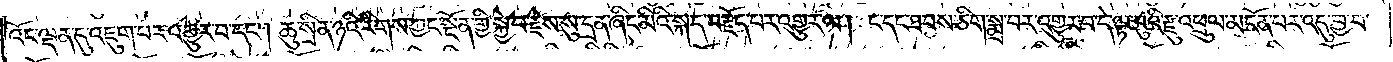འོང་ལྡན་དུ་འཇུག་པར་འགྱུར་བ་དང༌། ཆུ་སྲིན་ཉའི་རིགས་ཀྱང་སྔོན་གྱི་སྐྱེ་བ་རྗེས་སུ་དྲན་ཞིང་མིའི་སྐད་བརྗོད་པར་འགྱུར་ལ། ང་དང་ཐབས་ཅིག་སྨྲ་བར་འགྱུར་བ་དེ་ལྟ་བུའི་རྫུ་འཕྲུལ་མངོན་པར་འདུ་བྱ་བ་
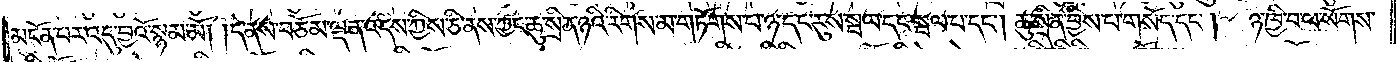མངོན་པར་འདུ་བྱའོ་སྙམ་མོ། །དེ་ནས་བཅོམ་ལྡན་འདས་ཀྱིས་ཅི་ནས་ཀྱང་ཆུ་སྲིན་ཉའི་རིགས་མ་གཏོགས་པ་ཉ་དང་རུས་སྦལ་དང་སྦལ་པ་དང༌། ཆུ་སྲིན་བྱིས་པ་གསོད་དང༌། ཉ་ཁྱི་བ་ལ་སོགས་
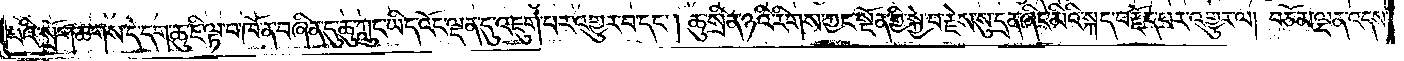པའི་སྲོག་ཆགས་དེ་དག་ཆུ་ཇི་ལྟ་བ་ཁོ་ན་བཞིན་དུ་ཆུ་ཀླུང་ཡིད་འོང་ལྡན་དུ་འཇུག་པར་འགྱུར་བ་དང༌། ཆུ་སྲིན་ཉའི་རིགས་ཀྱང་སྔོན་གྱི་སྐྱེ་བ་རྗེས་སུ་དྲན་ཞིང་མིའི་སྐད་བརྗོད་པར་འགྱུར་ལ། བཅོམ་ལྡན་འདས་
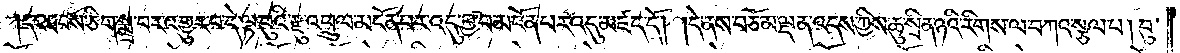དང་ཐབས་ཅིག་སྨྲ་བར་འགྱུར་བ་དེ་ལྟ་བུའི་རྫུ་འཕྲུལ་མངོན་པར་འདུ་བྱ་བ་མངོན་པར་འདུ་མཛད་དོ། །དེ་ནས་བཅོམ་ལྡན་འདས་ཀྱིས་ཆུ་སྲིན་ཉའི་རིགས་ལ་བཀའ་སྩལ་པ། བུ་
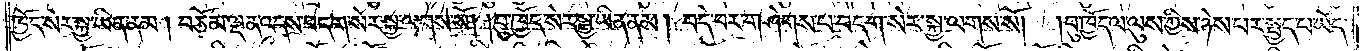ཁྱོད་སེར་སྐྱ་ཡིན་ནམ། བཅོམ་ལྡན་འདས་བདག་སེར་སྐྱ་ལགས་སོ། །བུ་ཁྱོད་སེར་སྐྱ་ཡིན་ནམ། བདེ་བར་གཤེགས་པ་བདག་སེར་སྐྱ་ལགས་སོ། །བུ་ཁྱོད་ལ་ལུས་ཀྱིས་ཉེས་པར་སྤྱད་པ་ཡོད་
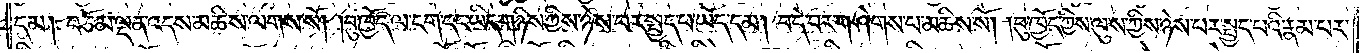དམ། བཅོམ་ལྡན་འདས་མཆིས་ལགས་སོ། །བུ་ཁྱོད་ལ་ངག་དང་ཡིད་གཉིས་ཀྱིས་ཉེས་པར་སྤྱད་པ་ཡོད་དམ། བདེ་བར་གཤེགས་པ་མཆིས་སོ། །བུ་ཁྱོད་ཀྱིས་ལུས་ཀྱིས་ཉེས་པར་སྤྱད་པའི་རྣམ་པར་
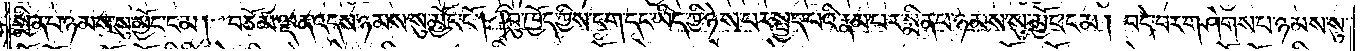སྨིན་པ་ཉམས་སུ་མྱོང་ངམ། བཅོམ་ལྡན་འདས་ཉམས་སུ་མྱོང་ངོ༌། །བུ་ཁྱོད་ཀྱིས་ངག་དང་ཡིད་ཀྱི་ཉེས་པར་སྤྱད་པའི་རྣམ་པར་སྨིན་པ་ཉམས་སུ་མྱོང་ངམ། བདེ་བར་གཤེགས་པ་ཉམས་སུ་
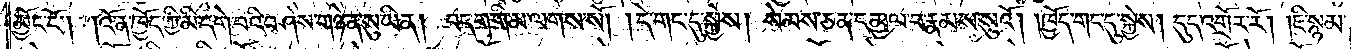མྱོང་ངོ༌། །འོ་ན་ཁྱོད་ཀྱི་མི་དགེ་བའི་བཤེས་གཉེན་སུ་ཡིན། བདག་གི་མ་ལགས་སོ། །དེ་གང་དུ་སྐྱེས། སེམས་ཅན་དམྱལ་བ་རྣམས་སུའོ། །ཁྱོད་གང་དུ་སྐྱེས། དུད་འགྲོར་རོ། །ཇི་སྙམ་
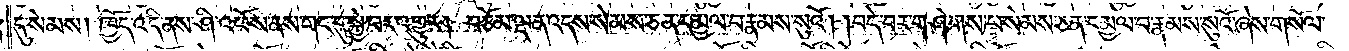དུ་སེམས། ཁྱོད་འདི་ནས་ཤི་འཕོས་ནས་གང་དུ་སྐྱེ་བར་འགྱུར། བཅོམ་ལྡན་འདས་སེམས་ཅན་དམྱལ་བ་རྣམས་སུའོ། །བདེ་བར་གཤེགས་པ་སེམས་ཅན་དམྱལ་བ་རྣམས་སུའོ་ཞེས་གསོལ་
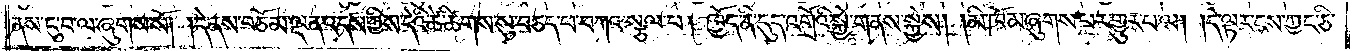ནས་ངུ་བ་ལ་ཞུགས་སོ། །དེ་ནས་བཅོམ་ལྡན་འདས་ཀྱིས་དེའི་ཚེ་ཚིགས་སུ་བཅད་པ་བཀའ་སྩལ་པ། ཁྱོད་ནི་དུད་འགྲོའི་སྐྱེ་གནས་སྐྱེས། མི་ཁོམ་ཞུགས་པར་གྱུར་པ་ལ། །དེ་ལྟར་ངས་ཀྱང་ཅི་
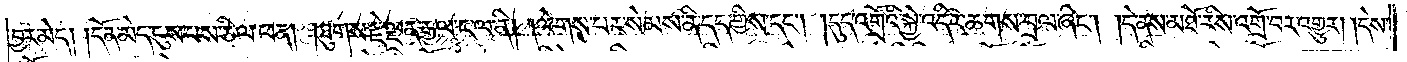བྱར་མེད། །དོན་མེད་ངུས་པས་ཅི་ལ་ཕན། །ཐུགས་རྗེ་ལྡན་རྒྱལ་ང་ལ་ནི། །ལེགས་པར་སེམས་ནི་དད་གྱིས་དང༌། །དུད་འགྲོའི་སྐྱེ་འདིར་ཆགས་བྲལ་ཞིང༌། །དེ་ནས་མཐོ་རིས་འགྲོ་བར་འགྱུར། །དེས་
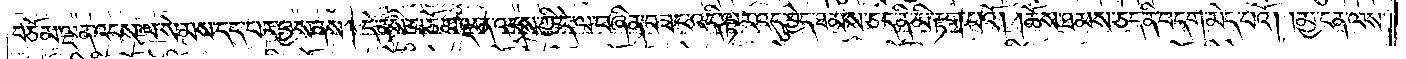བཅོམ་ལྡན་འདས་ལ་སེམས་དད་པར་བྱས་ནས། དེ་ནས་བཅོམ་ལྡན་འདས་ཀྱི་དེ་ལ་བཞིན་བཟང་འདི་ལྟར་འདུ་བྱེད་ཐམས་ཅད་ནི་མི་རྟག་པའོ། །ཆོས་ཐམས་ཅད་ནི་བདག་མེད་པའོ། །མྱ་ངན་ལས་
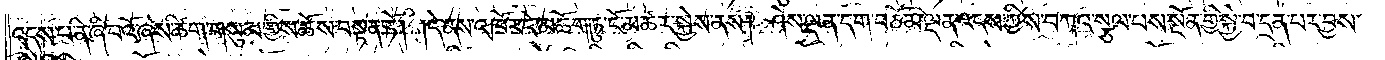འདས་པ་ནི་ཞི་བའོ་ཞེས་ཚིག་གསུམ་གྱིས་ཆོས་བསྟན་ཏོ། །དེ་ནས་འཁོར་དེ་མཆོག་ཏུ་ངོ་མཚར་སྐྱེས་ནས། ཤེས་ལྡན་དག་བཅོམ་ལྡན་འདས་ཀྱིས་བཀའ་སྩལ་པས་སྔོན་གྱི་སྐྱེ་བ་དྲན་པར་བྱས་
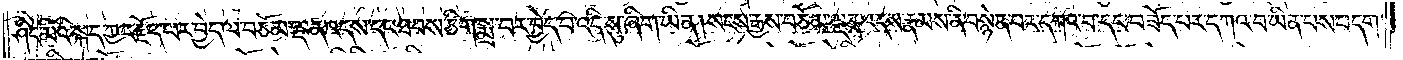ཤིང་མིའི་སྐད་ཀྱང་རྗོད་པར་བྱེད་ལ་བཅོམ་ལྡན་འདས་དང་ཐབས་ཅིག་སྨྲ་བར་བྱེད་པ་འདི་སུ་ཞིག་ཡིན། སངས་རྒྱས་བཅོམ་ལྡན་འདས་རྣམས་ནི་བསྙེན་པར་དཀའ་བ་དང་བཟོད་པར་དཀའ་བ་ཡིན་པས་བདག་
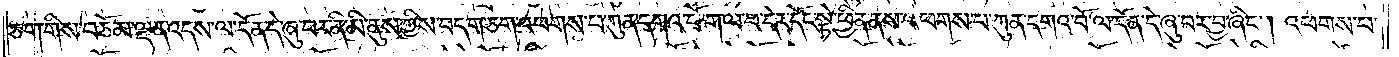ཅག་གིས་བཅོམ་ལྡན་འདས་ལ་དོན་དེ་ཞུ་བར་ནི་མི་ནུས་ཀྱིས་བདག་ཅག་འཕགས་པ་ཀུན་དགའ་བོ་ག་ལ་བ་དེར་དོང་སྟེ་ཕྱིན་ནས་འཕགས་པ་ཀུན་དགའ་བོ་ལ་དོན་དེ་ཞུ་བར་བྱ་ཞིང༌། འཕགས་པ་
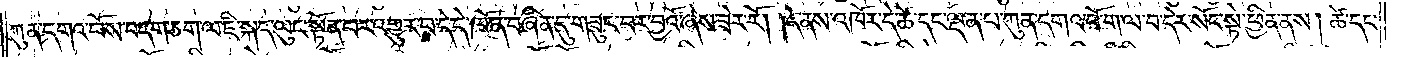ཀུན་དགའ་བོས་བདག་ཅག་ལ་ཇི་སྐད་ལུང་སྟོན་པར་འགྱུར་བ་དེ་དེ་ཁོ་ན་བཞིན་དུ་གཟུང་བར་བྱའོ་ཞེས་ཟེར་རོ། །དེ་ནས་འཁོར་དེ་ཚེ་དང་ལྡན་པ་ཀུན་དགའ་བོ་ག་ལ་བ་དེར་སོང་སྟེ་ཕྱིན་ནས། ཚེ་དང་
